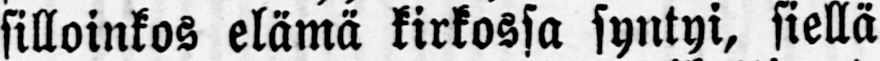silloinkos elämä kirkossa syntyi, siellä
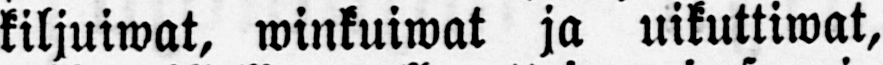kiljuiwat, winkuiwat ja uikuttiwat,
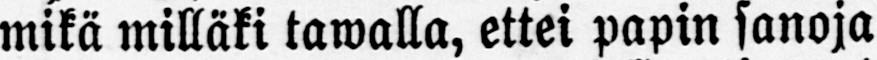mikä milläki tawalla, ettei papin sanoja
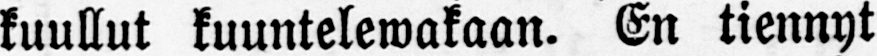kuullut kuuntelewakaan. En tiennyt
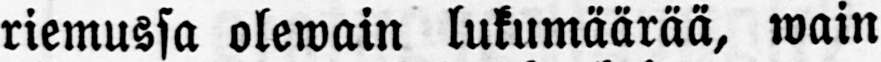riemussa olewain lukumäärää, wain
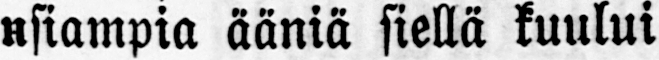nsiampia ääniä siellä kuului
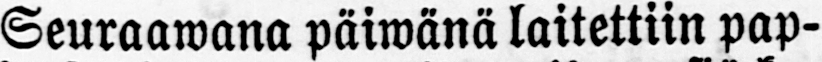Seuraawana päiwänä laitettiin pap-
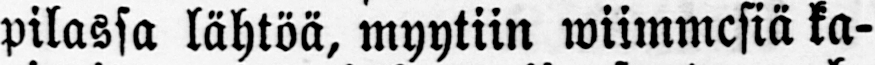pilassa lähtöä, myytiin wiimmcsiä ka-
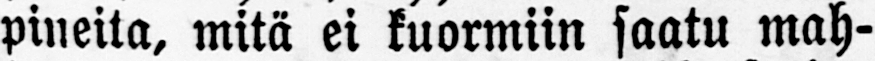pineita, mitä ei kuormiin saatu mah-
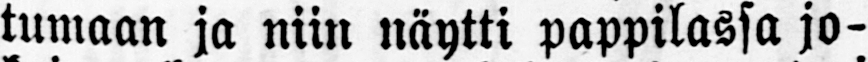tumaan ja niin näytti pappilassa jo-
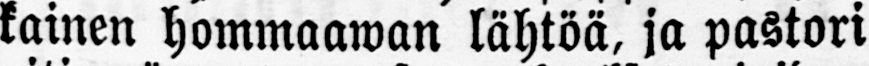kainen hommaawan lähtöä, ja pastori
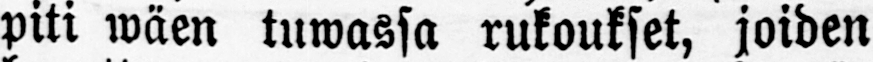piti wäen tuwassa rukoukset, joiden
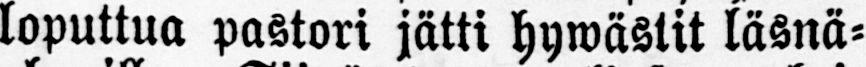loputtua pastori jätti hywästit läsnä-
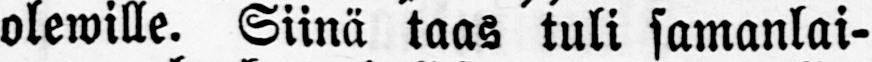olewille. Siinä taas tuli samanlai-
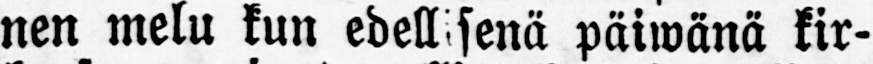nen melu kun edellisenä päiwänä kir-
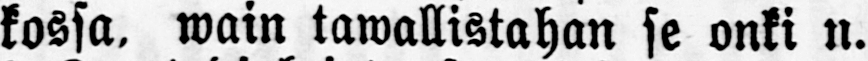kossa, wain tawallistahan se onki n.
